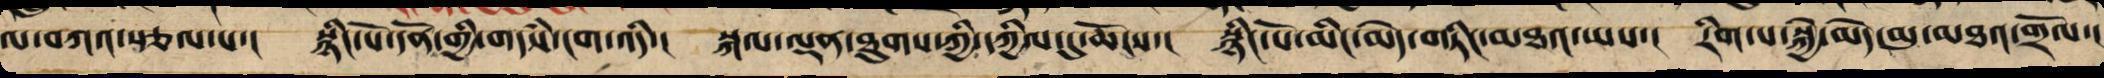ལ་བཀའ་སྩལ་པ་། སྙིང་པོ་དོན་གྱི་གདཾས་ངག་འདི་། སྐལ་ལྡན་ཐུགས་ཀྱི་དཀྱིལ་དུ་ཆོངས་། སྙིང་པོ་མིང་མེད་གཏིང་མཐའ་ཡས་། རིག་པ་སྐྱེ་མེད་མུ་མཐའ་གྲོལ་།
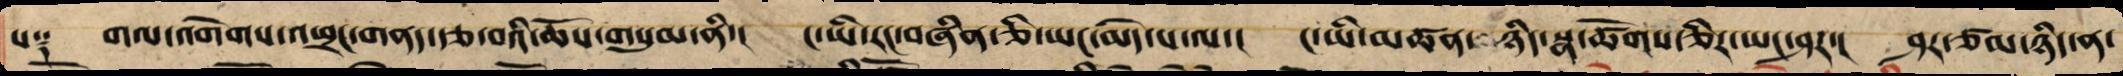པ༑ གལ་འགེགས་འཕྲང་གནད་རྩ་བའི་ཆོས་གསུམ་ནི་། ང་ཡི་རང་བཞིན་ཅི་ཡང་མེད་པ་ལ་། ང་ཡི་མཚན་ ཉིད་སྣ་ཚོགས་ཅིར་ཡང་ཤར་། ཤར་ཙམ་ཉིད་ན་
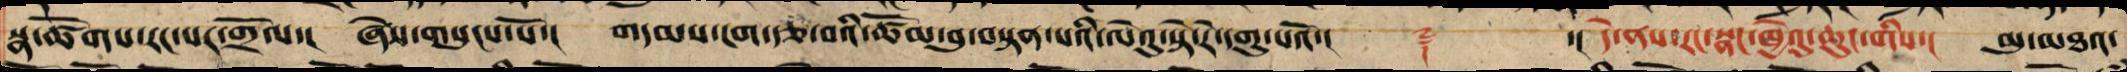སྣ་ཚོགས་རང་སར་གྲོལ་། ཞེས་གསུངས་སོ་། གདམས་ངག་རྩ་བའི་ཚོམ་བུ་བསྟན་པའི་ལེའུ་སྟེ་རེ་དགུ་པའོ་།། ༈ ་།། དེ་ནས་རང་སྣང་ཁྱེའུ་ཆུང་གིས་། མུ་མཐའ་
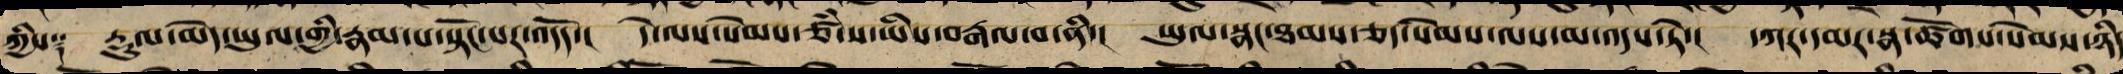ཀྱིས༑ རྡུལ་མེད་ཡུལ་གྱི་རྣམ་པ་སྟོང་པར་འདོད་། དེ་ལས་སེམས་ཙཾ་པ་ཡིས་བརྒལ་བ་ནི་། ཡུལ་སྣང་ཐམས་ཅད་སེམས་ལས་མ་འདས་ཏེ་། དཀར་དམར་སྣ་ཚོགས་སེམས་ཉིད
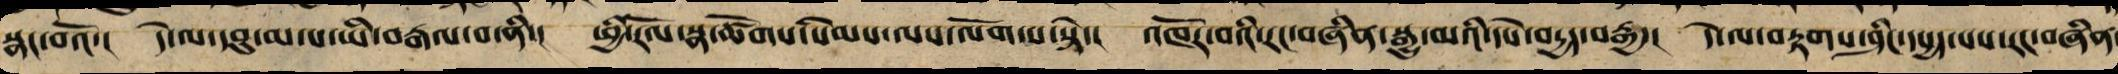སྣང་བའོ་། དེ་ལ་དབུ་མ་པ་ཡིས་བརྒལ་བ་ནི་། ཕྱི་རོལ་སྣ་ཚོགས་སེམས་ལས་ལོག་པ་སྟེ་། འཁོར་བའི་རང་བཞིན་སྒྱུ་མའི་དཔེ་བདྱད་བལྟ་། དེ་ལ་བརྟགས་ཤིང་དཔྱད་པས་རང་བཞིན
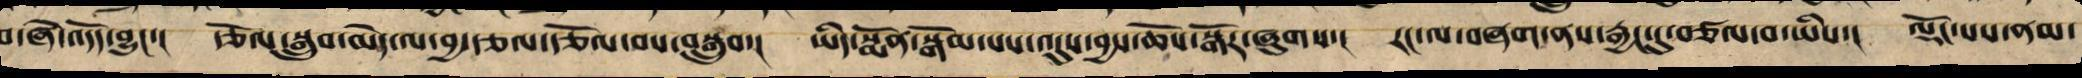བ་ཞེ་འདོད་བྱུང་། རྩོལ་སྒྲུབ་མེད་ལ་བྱ་རྩལ་རྩོལ་བས་བསྒྲུབ་། ཡིད་སྨོན་སྒོམ་པས་འདུས་བྱས་ཆོས་སྒོར་ཞུགས་། རང་ལ་བཞག་ནས་རྒྱང་དུ་བཙལ་བ་ཡིས་། ལྡོང་པས་ནམ་
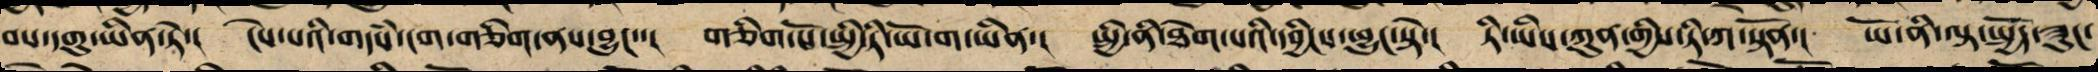བས་དགུ་ཡིན་ཏེ་། ངེས་པའི་གདཾས་ངག་གཅིག་ནས་འབྱུང་་། གཅིག་པོ་སྤྱི་ཏི་ཡོ་ག་ཡིན་། སྤྱི་ནི་ཐེག་པའི་དབྱིངས་ཕྱུང་སྟེ་། ཏི་ཡིས་ཀུན་གྱི་ཏི་ཀ་སྟོན་། ཡོ་ནི་ལྟ་སྤྱོད་ཟུང་
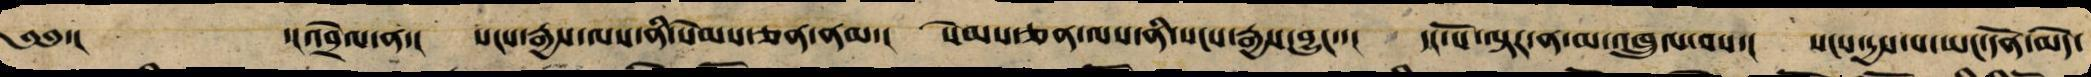༄༅་། ་།འབྲེལ་ན་། སངས་རྒྱས་ལས་ནི་སེམས་ཅན་ནམ་། སེམས་ཅན་ལས་ནི་སངས་རྒྱས་བྱུང་་། དང་པོ་ལྟར་ན་མ་འཁྲུལ་པས་། སངས་དྱས་པ་ཡང་དོན་མེད་
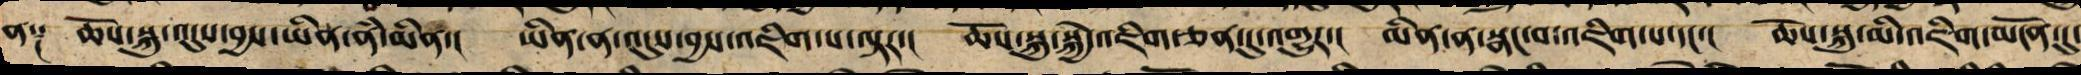ན། །ཆོས་སྐུ་འདུས་བྱས་ཡིན་ནམ་མིན། །ཡིན་ན་འདུས་བྱས་འཇིག་པ་ལྟར། །ཆོས་སྐུ་སྐྱེ་འཇིག་ཅན་དུ་འགྱུར། །མིན་ན་སྣང་བ་འཇིག་པ་དང་། །ཆོས་སྐུ་མི་འཇིག་མངོན་དུ་
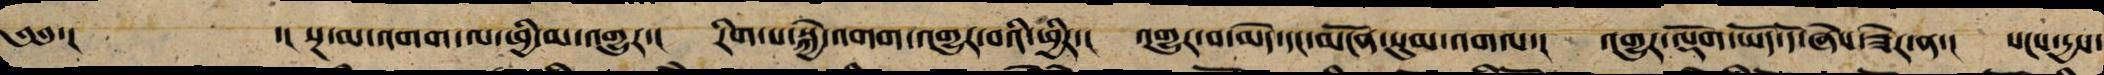༄༅་། ་། སྔ་མ་འགག་ལ་ཕྱི་མར་འགྱུར་། རིག་པ་སྐྱེ་འགག་འགྱུར་བའི་ཕྱིར་། འགྱུར་བ་མེད་དང་མངོན་སུམ་འགལ་། འགྱུར་ལྡོག་ཡོད་དོ་ཞེས་ཟེར་ན་། སངས་རྒྱས་
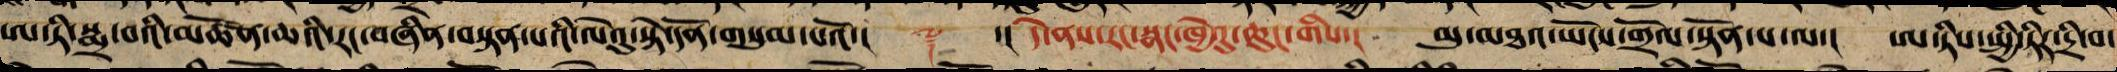ཨ་ཏི་སྨྲ་བའི་མཚོན་ཆའི་རང་བཞིན་བསྟན་པའི་ལེའུ་སྟེ་དོན་གསུམ་པའོ་།། ༈ ་། དེ་ནས་རང་སྣང་ཁྱེའུ་ཆུང་གིས་། མུ་མཐའ་ཡོངས་གྲོལ་སྟོན་པ་ལ་། ཨ་ཏིས་སྤྱི་ཏིར་དྲི་བ་
